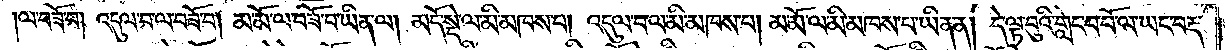ལ་བཟོ་བ། འདུལ་བ་ལ་བཟོ་བ། མ་མོ་ལ་བཟོ་བ་ཡིན་ལ། མདོ་སྡེ་ལ་མི་མཁས་པ། འདུལ་བ་ལ་མི་མཁས་པ། མ་མོ་ལ་མི་མཁས་པ་ཡིན་ན། དེ་ལྟ་བུའི་གླེང་བ་པོ་ལ་ཡང་བརྡ་
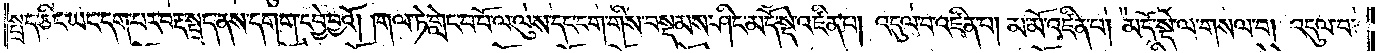སྤྲད་ཅིང་ཡང་དག་པར་བརྡ་སྤྲད་ནས་དགག་དབྱེ་བྱའོ། །གལ་ཏེ་གླེང་བ་པོ་ལ་ལུས་དང་ངག་གིས་བསྡམས་ཤིང་མདོ་སྡེ་འཛིན་པ། འདུལ་བ་འཛིན་པ། མ་མོ་འཛིན་པ། མདོ་སྡེ་ལ་གསལ་བ། འདུལ་བ་
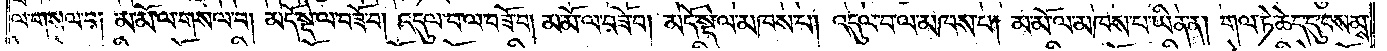ལ་གསལ་བ། མ་མོ་ལ་གསལ་བ། མདོ་སྡེ་ལ་བཟོ་བ། འདུལ་བ་ལ་བཟོ་བ། མ་མོ་ལ་བཟོ་བ། མདོ་སྡེ་ལ་མཁས་པ། འདུལ་བ་ལ་མཁས་པ། མ་མོ་ལ་མཁས་པ་ཡིན་ན། གལ་ཏེ་ཆེད་དུ་བསམས་
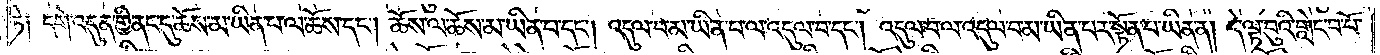ཏེ ༏ དགེ་འདུན་གྱི་ནང་དུ་ཆོས་མ་ཡིན་པ་ལ་ཆོས་དང༌། ཆོས་ལ་ཆོས་མ་ཡིན་པ་དང༌། འདུལ་བ་མ་ཡིན་པ་ལ་འདུལ་བ་དང༌། འདུལ་བ་ལ་འདུལ་བ་མ་ཡིན་པར་སྟོན་པ་ཡིན་ན། དེ་ལྟ་བུའི་གླེང་བ་པོ་
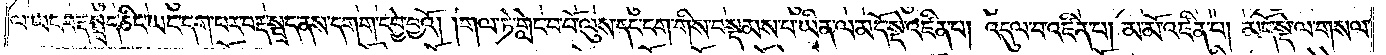ལ་ཡང་བརྡ་སྤྲད་ཅིང་ཡང་དག་པར་བརྡ་སྤྲད་ནས་དགག་དབྱེ་བྱའོ། །གལ་ཏེ་གླེང་བ་པོ་ལུས་དང་ངག་གིས་བསྡམས་པ་ཡིན་ལ་མདོ་སྡེ་འཛིན་པ། འདུལ་བ་འཛིན་པ། མ་མོ་འཛིན་པ། མདོ་སྡེ་ལ་གསལ་
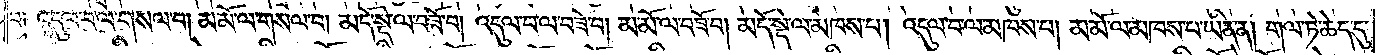བ༏ འདུལ་བ་ལ་གསལ་བ། མ་མོ་ལ་གསལ་བ། མདོ་སྡེ་ལ་བཟོ་བ། འདུལ་བ་ལ་བཟོ་བ། མ་མོ་ལ་བཟེ་བ། མདོ་སྡེ་ལ་མཁས་པ། འདུལ་བ་ལ་མཁས་པ། མ་མོ་ལ་མཁས་པ་ཡིན་ན། གལ་ཏེ་ཆེད་དུ་
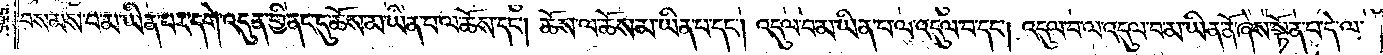བསམས་པ་མ་ཡིན་པར་དགེ་འདུན་གྱི་ནང་དུ་ཆོས་མ་ཡིན་པ་ལ་ཆོས་དང༌། ཆོས་ལ་ཆོས་མ་ཡིན་པ་དང༌། འདུལ་བ་མ་ཡིན་པ་ལ་འདུལ་བ་དང༌། འདུལ་བ་ལ་འདུལ་བ་མ་ཡིན་ནོ་ཞེས་སྟོན་པ་དེ་ལ་
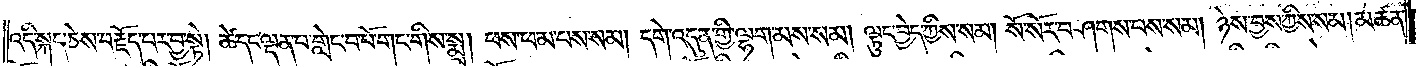འདི་སྐད་ཅེས་བརྗོད་པར་བྱ་སྟེ། ཚེ་དང་ལྡན་པ་གླེང་བ་པ་གང་གིས་སྨྲ། ཕས་ཕམ་པས་སམ། དགེ་འདུན་གྱི་ལྷག་མས་སམ། ལྟུང་བྱེད་ཀྱིས་སམ། སོ་སོར་བཤགས་བས་སམ། ཉེས་བྱས་ཀྱིས་སམ། མཚན་
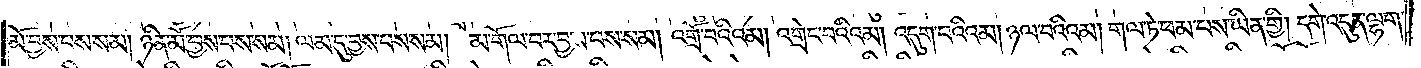མོ་བྱས་པས་སམ། ཉིན་མོ་བྱས་པས་སམ། ལམ་དུ་བྱས་པས་སམ། མ་གོལ་བར་བྱས་པས་སམ། འགྲོ་བའི་འམ། འགྲེང་བའི་འམ། འདུག་བའི་འམ། ཉལ་བའི་འམ། གལ་ཏེ་ཕམ་པས་ཡིན་གྱི། དགེ་འདུན་ལྷག་
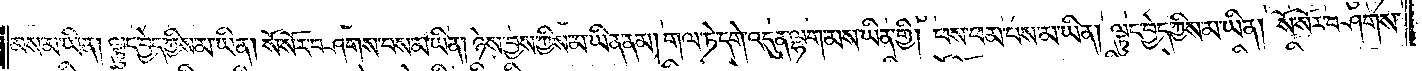མས་མ་ཡིན། ལྟུང་བྱེད་ཀྱིས་མ་ཡིན། སོ་སོར་བཤགས་བསམ་ཡིན། ཉེས་བྱས་ཀྱིས་མ་ཡིན་ནམ། གལ་ཏེ་དགེ་འདུན་ལྷག་མས་ཡིན་གྱི། ཕས་ཕམ་པས་མ་ཡིན། ལྟུང་བྱེད་ཀྱིས་མ་ཡིན། སོ་སོར་བཤགས་
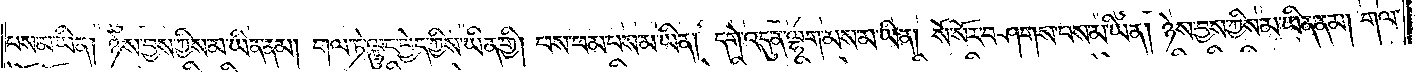པས་མ་ཡིན། ཉེས་བྱས་ཀྱིས་མ་ཡིན་ནམ། གལ་ཏེ་ལྟུང་བྱེད་ཀྱིས་ཡིན་གྱི། ཕས་ཕམ་པས་མ་ཡིན། དགེ་འདུན་ལྷག་མས་མ་ཡིན། སོ་སོར་བཤགས་པས་མ་ཡིན། ཉེས་བྱས་ཀྱིས་མ་ཡིན་ནམ། གལ་
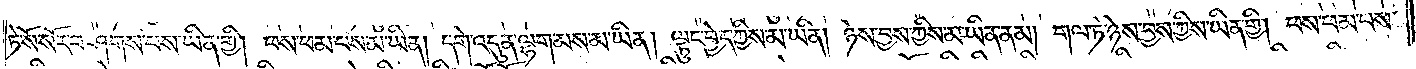ཏེ་སོ་སོར་བཤགས་པས་ཡིན་གྱི། ཕས་ཕམ་པས་མ་ཡིན། དགེ་འདུན་ལྷག་མས་མ་ཡིན། ལྟུང་བྱེད་ཀྱིས་མ་ཡིན། ཉེས་བྱས་ཀྱིས་མ་ཡིན་ནམ། གལ་ཏེ་ཉེས་བྱས་ཀྱིས་ཡིན་གྱི། ཕས་ཕམ་པས་
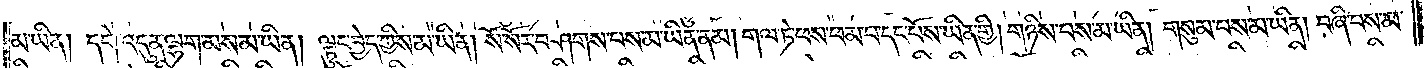མ་ཡིན། དགེ་འདུན་ལྷག་མས་མ་ཡིན། ལྟུང་བྱེད་ཀྱིས་མ་ཡིན། སོ་སོར་བཤགས་པས་མ་ཡིན་ནམ། གལ་ཏེ་ཕས་ཕམ་པ་དང་པོས་ཡིན་གྱི། གཉིས་པས་མ་ཡིན། གསུམ་པས་མ་ཡིན། བཞི་པས་མ་
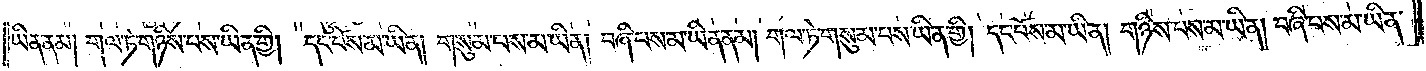ཡིན་ནམ། གལ་ཏེ་གཉིས་པས་ཡིན་གྱི། དང་པོས་མ་ཡིན། གསུམ་པས་མ་ཡིན། བཞི་པས་མ་ཡིན་ནམ། གལ་ཏེ་གསུམ་པས་ཡིན་གྱི། དང་པོས་མ་ཡིན། གཉིས་པས་མ་ཡིན། བཞི་པས་མ་ཡིན་
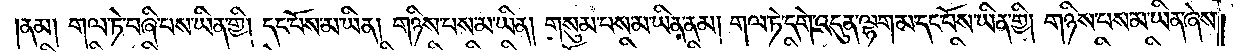ནམ། གལ་ཏེ་བཞི་པས་ཡིན་གྱི། དང་པོས་མ་ཡིན། གཉིས་པས་མ་ཡིན། གསུམ་པས་མ་ཡིན་ནམ། གལ་ཏེ་དགེ་འདུན་ལྷག་མ་དང་པོས་ཡིན་གྱི། གཉིས་པས་མ་ཡིན་ཞེས་
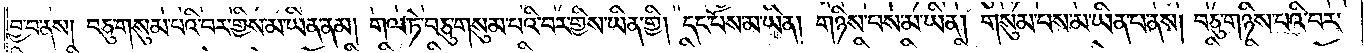བྱ་བ་ནས། བཅུ་གསུམ་པའི་བར་གྱིས་མ་ཡིན་ནམ། གལ་ཏེ་བཅུ་གསུམ་པའི་བར་གྱིས་ཡིན་གྱི། དང་པོས་མ་ཡིན། གཉིས་པས་མ་ཡིན། གསུམ་པས་མ་ཡིན་པ་ནས། བཅུ་གཉིས་པའི་བར་
